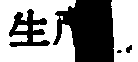生产
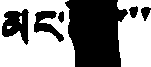མང་ ར་་
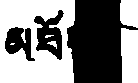མཐོ
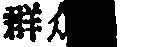群
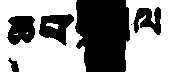ཆབ་ ལ
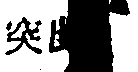突出
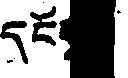དངོས
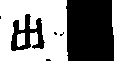出
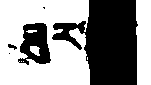ཟུར
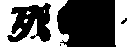死
